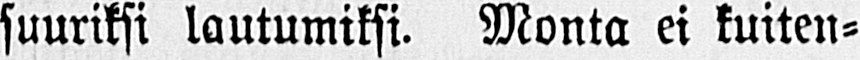suuriksi lautumiksi. Monta ei kuiten-
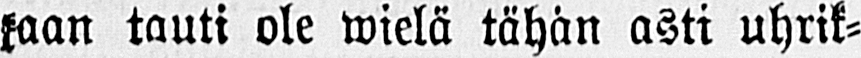kaan tauti ole wielä tähän asti uhrik-
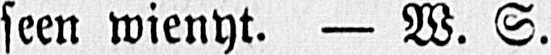seen wienyt. - W. S.
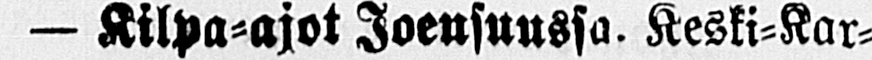- Kilpa-ajot Joensuussa. Keski-Kar-
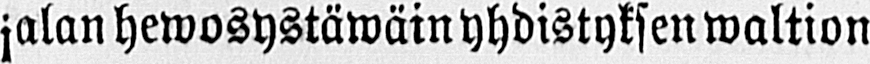jalan hewosystäwäin yhdistyksen waltion
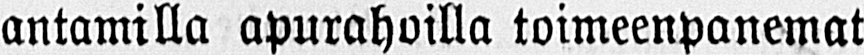antamilla apurahoilla toimeenpanemat
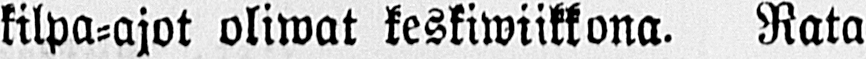kilpa-ajot oliwat keskiwiikkona. Rata
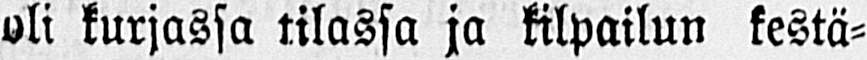oli kurjassa tilassa ja kilpailun kestä-
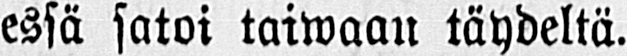essä satoi taiwaan täydeltä.
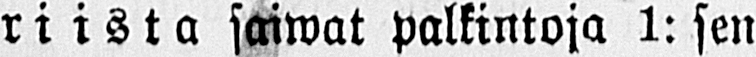Oriista saiwat palkintoja 1: sen
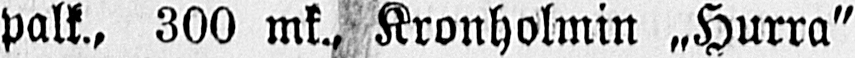palk., 300 mk., Kronholmin „Hurra"
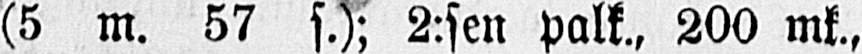(5 m. 57 s.) 2:sen palk., 200 mk.,
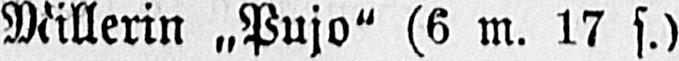Millerin „Pujo" (6 m. 17 s.)
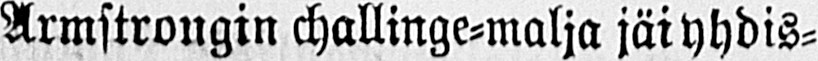Armstrongin challinge-malja jäi yhdis-
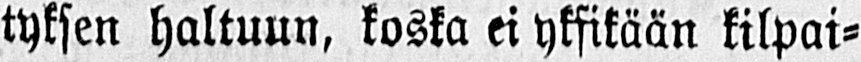tyksen haltuun, koska ei yksikään kilpai-
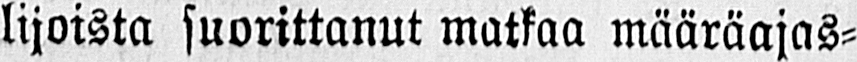lijoista suorittanut matkaa määräajas-
